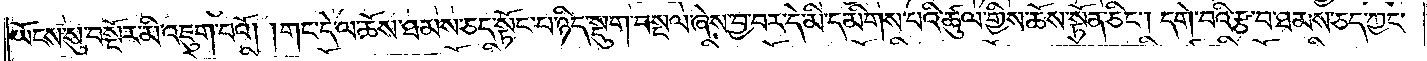ཡོངས་སུ་བསྔོར་མི་འཇུག་པའོ། །གང་དེ་ལ་ཆོས་ཐམས་ཅད་སྟོང་བ་ཉིད་སྡུག་བསྔལ་ཞེས་བྱ་བར་དེ་མི་དམིགས་པའི་ཚུལ་གྱིས་ཆོས་སྟོན་ཅིང༌། དགེ་བའི་རྩ་བ་ཐམས་ཅད་ཀྱང་
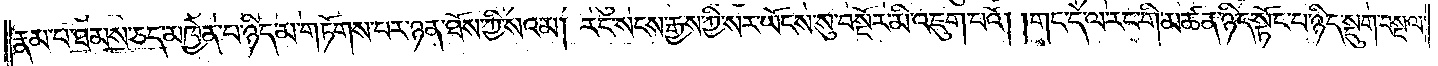རྣམ་པ་ཐམས་ཅད་མཁྱེན་པ་ཉིད་མ་གཏོགས་པར་ཉན་ཐོས་ཀྱི་སའམ། རང་སངས་རྒྱས་ཀྱི་སར་ཡོངས་སུ་བསྔོར་མི་འཇུག་པའོ། །གང་དེ་ལ་རང་གི་མཚན་ཉིད་སྟོང་པ་ཉིད་སྡུག་བསྔལ་
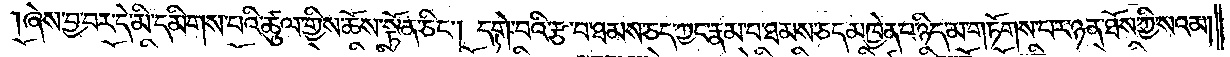ཞེས་བྱ་བར་དེ་མི་དམིགས་པའི་ཚུལ་གྱིས་ཆོས་སྟོན་ཅིང༌། དགེ་བའི་རྩ་བ་ཐམས་ཅད་ཀྱང་རྣམ་པ་ཐམས་ཅད་མཁྱེན་པ་ཉིད་མ་གཏོགས་པར་ཉན་ཐོས་ཀྱི་སའམ།
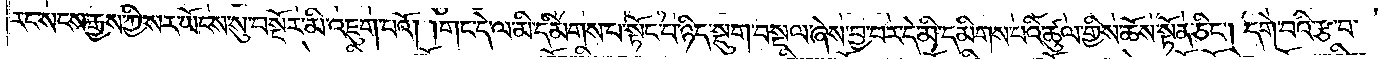རང་སངས་རྒྱས་ཀྱི་སར་ཡོངས་སུ་བསྔོར་མི་འཇུག་པའོ། །གང་དེ་ལ་མི་དམིགས་པ་སྟོང་པ་ཉིད་སྡུག་བསྔལ་ཞེས་བྱ་བར་དེ་མི་དམིགས་པའི་ཚུལ་གྱིས་ཆོས་སྟོན་ཅིང༌། དགེ་བའི་རྩ་བ་
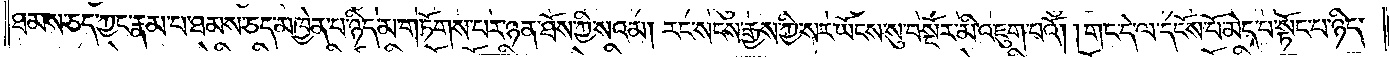ཐམས་ཅད་ཀྱང་རྣམ་པ་ཐམས་ཅད་མཁྱེན་པ་ཉིད་མ་གཏོགས་པར་ཉན་ཐོས་ཀྱི་སའམ། རང་སངས་རྒྱས་ཀྱི་སར་ཡོངས་སུ་བསྔོར་མི་འཇུག་པའོ། །གང་དེ་ལ་དངོས་པོ་མེད་པ་སྟོང་པ་ཉིད་
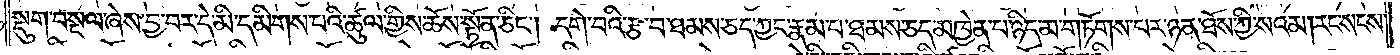སྡུག་བསྔལ་ཞེས་བྱ་བར་དེ་མི་དམིགས་པའི་ཚུལ་གྱིས་ཆོས་སྟོན་ཅིང༌། དགེ་བའི་རྩ་བ་ཐམས་ཅད་ཀྱང་རྣམ་པ་ཐམས་ཅད་མཁྱེན་པ་ཉིད་མ་གཏོགས་པར་ཉན་ཐོས་ཀྱི་སའམ། རང་སངས་
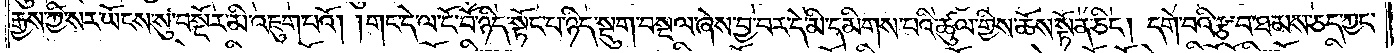རྒྱས་ཀྱི་སར་ཡོངས་སུ་བསྔོར་མི་འཇུག་པའོ། །གང་དེ་ལ་ངོ་བོ་ཉིད་སྟོང་པ་ཉིད་སྡུག་བསྔལ་ཞེས་བྱ་བར་དེ་མི་དམིགས་པའི་ཚུལ་གྱིས་ཆོས་སྟོན་ཅིང༌། དགེ་བའི་རྩ་བ་ཐམས་ཅད་ཀྱང་
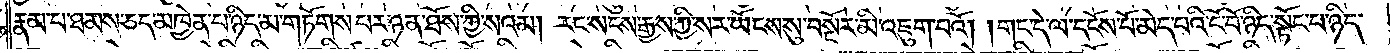རྣམ་པ་ཐམས་ཅད་མཁྱེན་པ་ཉིད་མ་གཏོགས་པར་ཉན་ཐོས་ཀྱི་སའམ། རང་སངས་རྒྱས་ཀྱི་སར་ཡོངས་སུ་བསྔོར་མི་འཇུག་པའོ། །གང་དེ་ལ་དངོས་པོ་མེད་པའི་ངོ་བོ་ཉིད་སྟོང་པ་ཉིད་
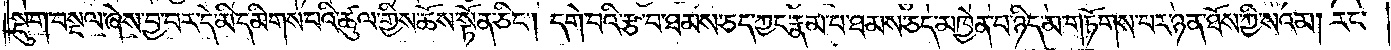སྡུག་བསྔལ་ཞེས་བྱ་བར་དེ་མི་དམིགས་པའི་ཚུལ་གྱིས་ཆོས་སྟོན་ཅིང༌། དགེ་བའི་རྩ་བ་ཐམས་ཅད་ཀྱང་རྣམ་པ་ཐམས་ཅད་མཁྱེན་པ་ཉིད་མ་གཏོགས་པར་ཉན་ཐོས་ཀྱི་སའམ། རང་
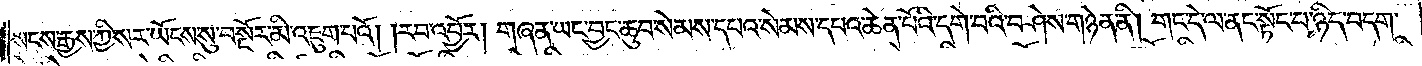སངས་རྒྱས་ཀྱི་སར་ཡོངས་སུ་བསྔོར་མི་འཇུག་པའོ། །རབ་འབྱོར། གཞན་ཡང་བྱང་ཆུབ་སེམས་དཔའ་སེམས་དཔའ་ཆེན་པོའི་དགེ་བའི་བཤེས་གཉེན་ནི། གང་དེ་ལ་ནང་སྟོང་པ་ཉིད་བདག་
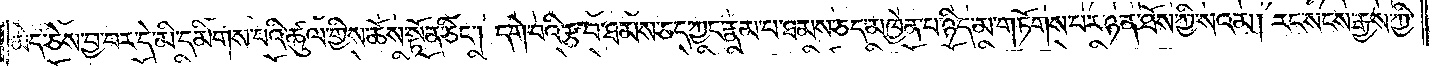མེད་ཅེས་བྱ་བར་དེ་མི་དམིགས་པའི་ཚུལ་གྱིས་ཆོས་སྟོན་ཅིང༌། དགེ་བའི་རྩ་བ་ཐམས་ཅད་ཀྱང་རྣམ་པ་ཐམས་ཅད་མཁྱེན་པ་ཉིད་མ་གཏོགས་པར་ཉན་ཐོས་ཀྱི་སའམ། རང་སངས་རྒྱས་ཀྱི་
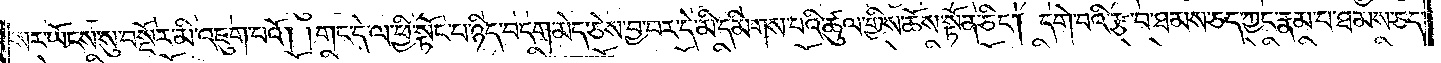སར་ཡོངས་སུ་བསྔོར་མི་འཇུག་པའོ། །གང་དེ་ལ་ཕྱི་སྟོང་པ་ཉིད་བདག་མེད་ཅེས་བྱ་བར་དེ་མི་དམིགས་པའི་ཚུལ་གྱིས་ཆོས་སྟོན་ཅིང༌། དགེ་བའི་རྩ་བ་ཐམས་ཅད་ཀྱང་རྣམ་པ་ཐམས་ཅད་
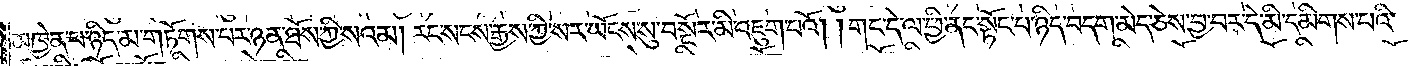མཁྱེན་པ་ཉིད་མ་གཏོགས་པར་ཉན་ཐོས་ཀྱི་སའམ། རང་སངས་རྒྱས་ཀྱི་སར་ཡོངས་སུ་བསྔོར་མི་འཇུག་པའོ། །གང་དེ་ལ་ཕྱི་ནང་སྟོང་པ་ཉིད་བདག་མེད་ཅེས་བྱ་བར་དེ་མི་དམིགས་པའི་
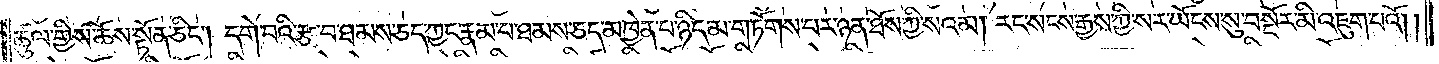ཚུལ་གྱིས་ཆོས་སྟོན་ཅིང༌། དགེ་བའི་རྩ་བ་ཐམས་ཅད་ཀྱང་རྣམ་པ་ཐམས་ཅད་མཁྱེན་པ་ཉིད་མ་གཏོགས་པར་ཉན་ཐོས་ཀྱི་སའམ། རང་སངས་རྒྱས་ཀྱི་སར་ཡོངས་སུ་བསྔོར་མི་འཇུག་པའོ། །
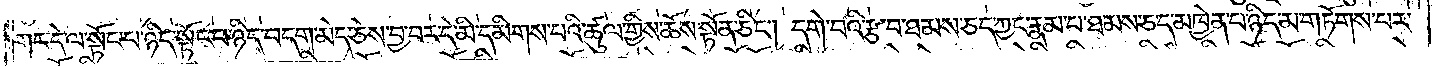གང་དེ་ལ་སྟོང་པ་ཉིད་སྟོང་པ་ཉིད་བདག་མེད་ཅེས་བྱ་བར་དེ་མི་དམིགས་པའི་ཚུལ་གྱིས་ཆོས་སྟོན་ཅིང༌། དགེ་བའི་རྩ་བ་ཐམས་ཅད་ཀྱང་རྣམ་པ་ཐམས་ཅད་མཁྱེན་པ་ཉིད་མ་གཏོགས་པར་
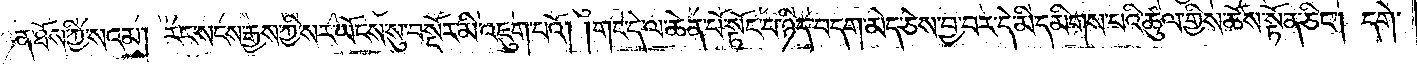ཉན་ཐོས་ཀྱི་སའམ། རང་སངས་རྒྱས་ཀྱི་སར་ཡོངས་སུ་བསྔོར་མི་འཇུག་པའོ། །གང་དེ་ལ་ཆེན་པོ་སྟོང་པ་ཉིད་བདག་མེད་ཅེས་བྱ་བར་དེ་མི་དམིགས་པའི་ཚུལ་གྱིས་ཆོས་སྟོན་ཅིང༌། དགེ་
